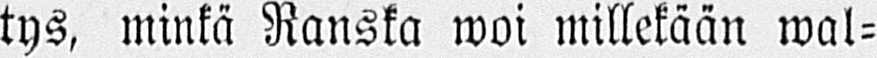tys, minkä Ranska woi millekään wal-
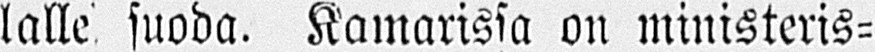lalle suoda. Kamarissa on ministeris-
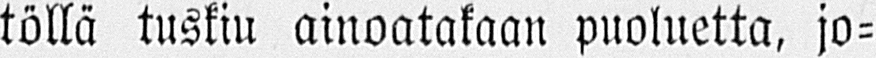töllä tuskiu ainoatakaan puoluetta, jo-
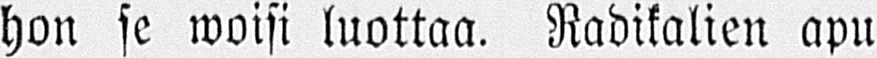hon se woisi luottaa. Radikalien apu
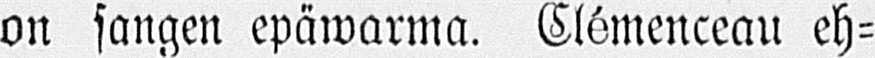on sangen epäwarma. Clémenceau eh-
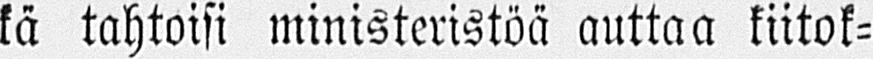kä tahtoisi ministeristöä auttaa kiitok-
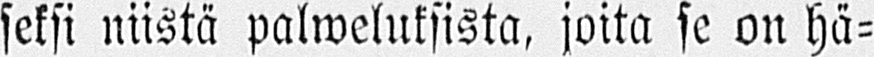seksi niistä palweluksista, joita se on hä-
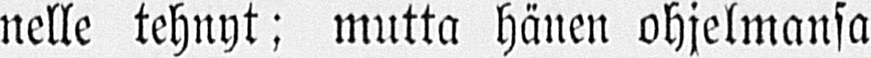nelle tehnyt; mutta hänen ohjelmansa
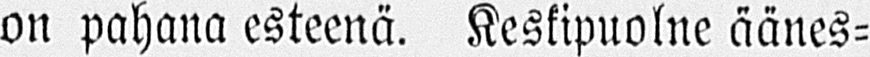on pahana esteenä. Keskipuolue äänes-
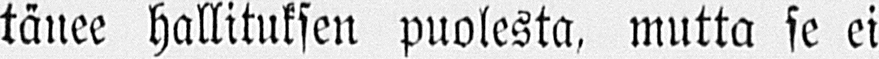tänee hallituksen puolesta, mutta se ei
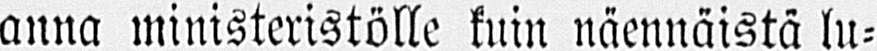anna ministeristölle kuin näennäistä lu-
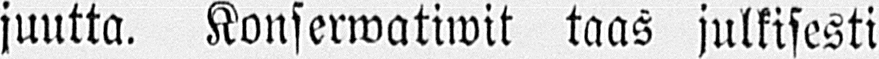juutta. Konserwatiwit taas julkisesti
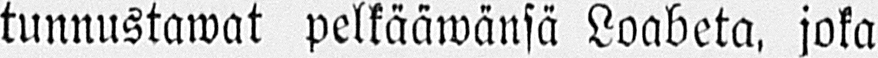tunnustawat pelkääwänsä Loabeta, joka
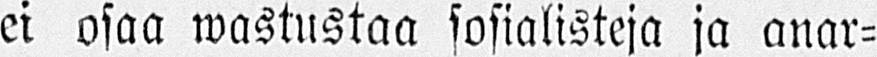ei osaa wastustaa sosialisteja ja anar-
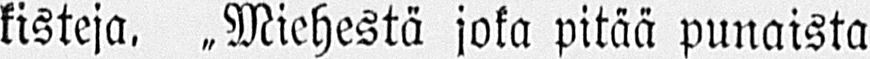kisteja. „Miehestä joka pitää punaista
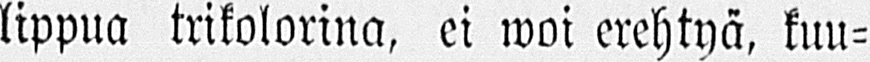lippua trikolorina, ei woi erehtyä, kuu-
